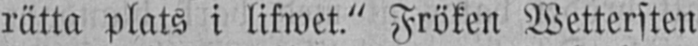rätta plats i lifwet." Fröken Wettersten
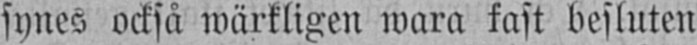synes också wärkligen wara fast besluten
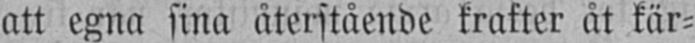att egna sina återstående krafter åt kär-
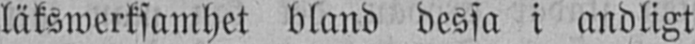läkswerksamhet bland dessa i andligt
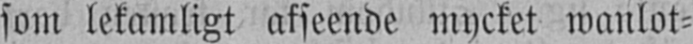som lekamligt afseende mycket wanlot-
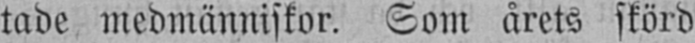tade medmänniskor. Som årets skörd
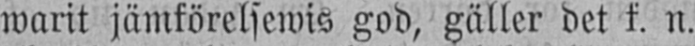warit jämförelsewis god, gäller det f. n.
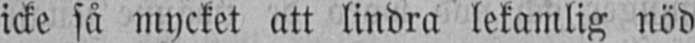icke så mycket att lindra lekamlig nöd
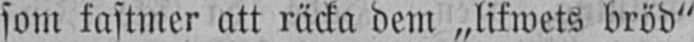som fastmer att räcka dem „lifwets bröd"
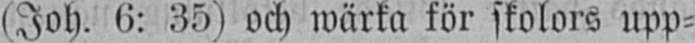(Joh. 6: 35) och wärka för skolors upp-
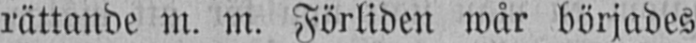rättande m. m. Förliden wår börjades
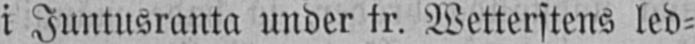i Juntusranta under fr. Wetterstens led-
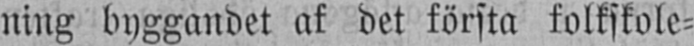ning byggandet af det första folkskole-
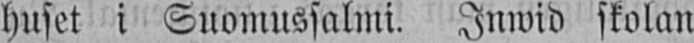huset i Suomussalmi. Inwid skolan
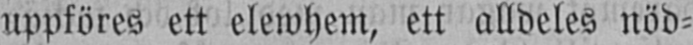uppföres ett elewhem, ett alldeles nöd-
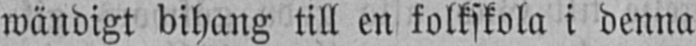wändigt bihang till en folkskola i denna
